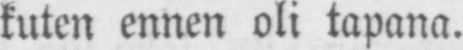kuten ennen oli tapana.
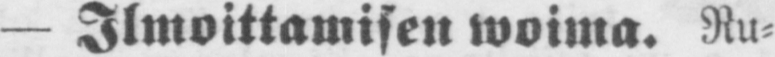— Ilmoittamisen woima. Ru-
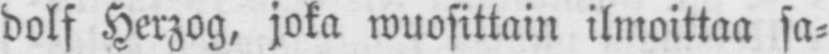dolf Herzog, joka wuosittain ilmoittaa sa-
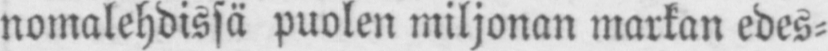nomalehdissä puolen miljonan markan edes-
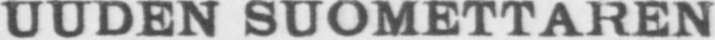UUDEN SUOMETTAREN
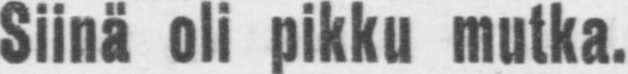Siinä oli pikku mutka.
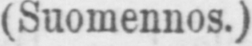(Suomennos.)
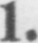1.
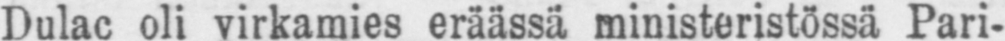Dulac oli virkamies eräässä ministeristössä Pari-
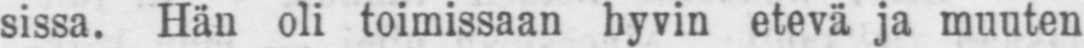sissa. Hän oli toimissaan hyvin etevä ja muuten
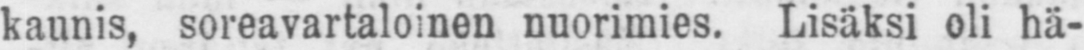kaunis, soreavartaloinen nuorimies. Lisäksi oli hä-
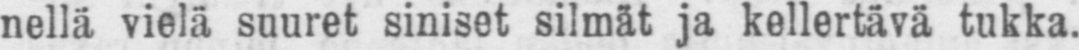nellä vielä suuret siniset silmät ja kellertävä tukka.
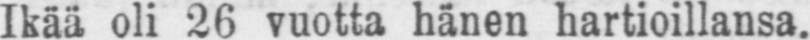Ikää oli 26 vuotta hänen hartioillansa.
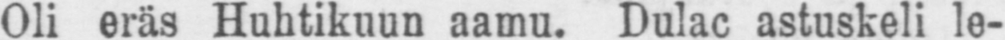Oli eräs Huhtikuun aamu. Dulac astuskeli le-
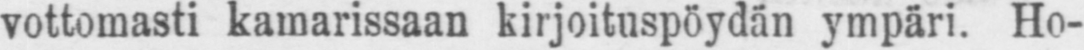vottomasti kamarissaan kirjoituspöydän ympäri. Ho-
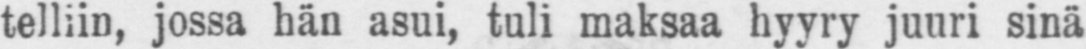telliin, jossa hän asui, tuli maksaa hyyry juuri sinä
